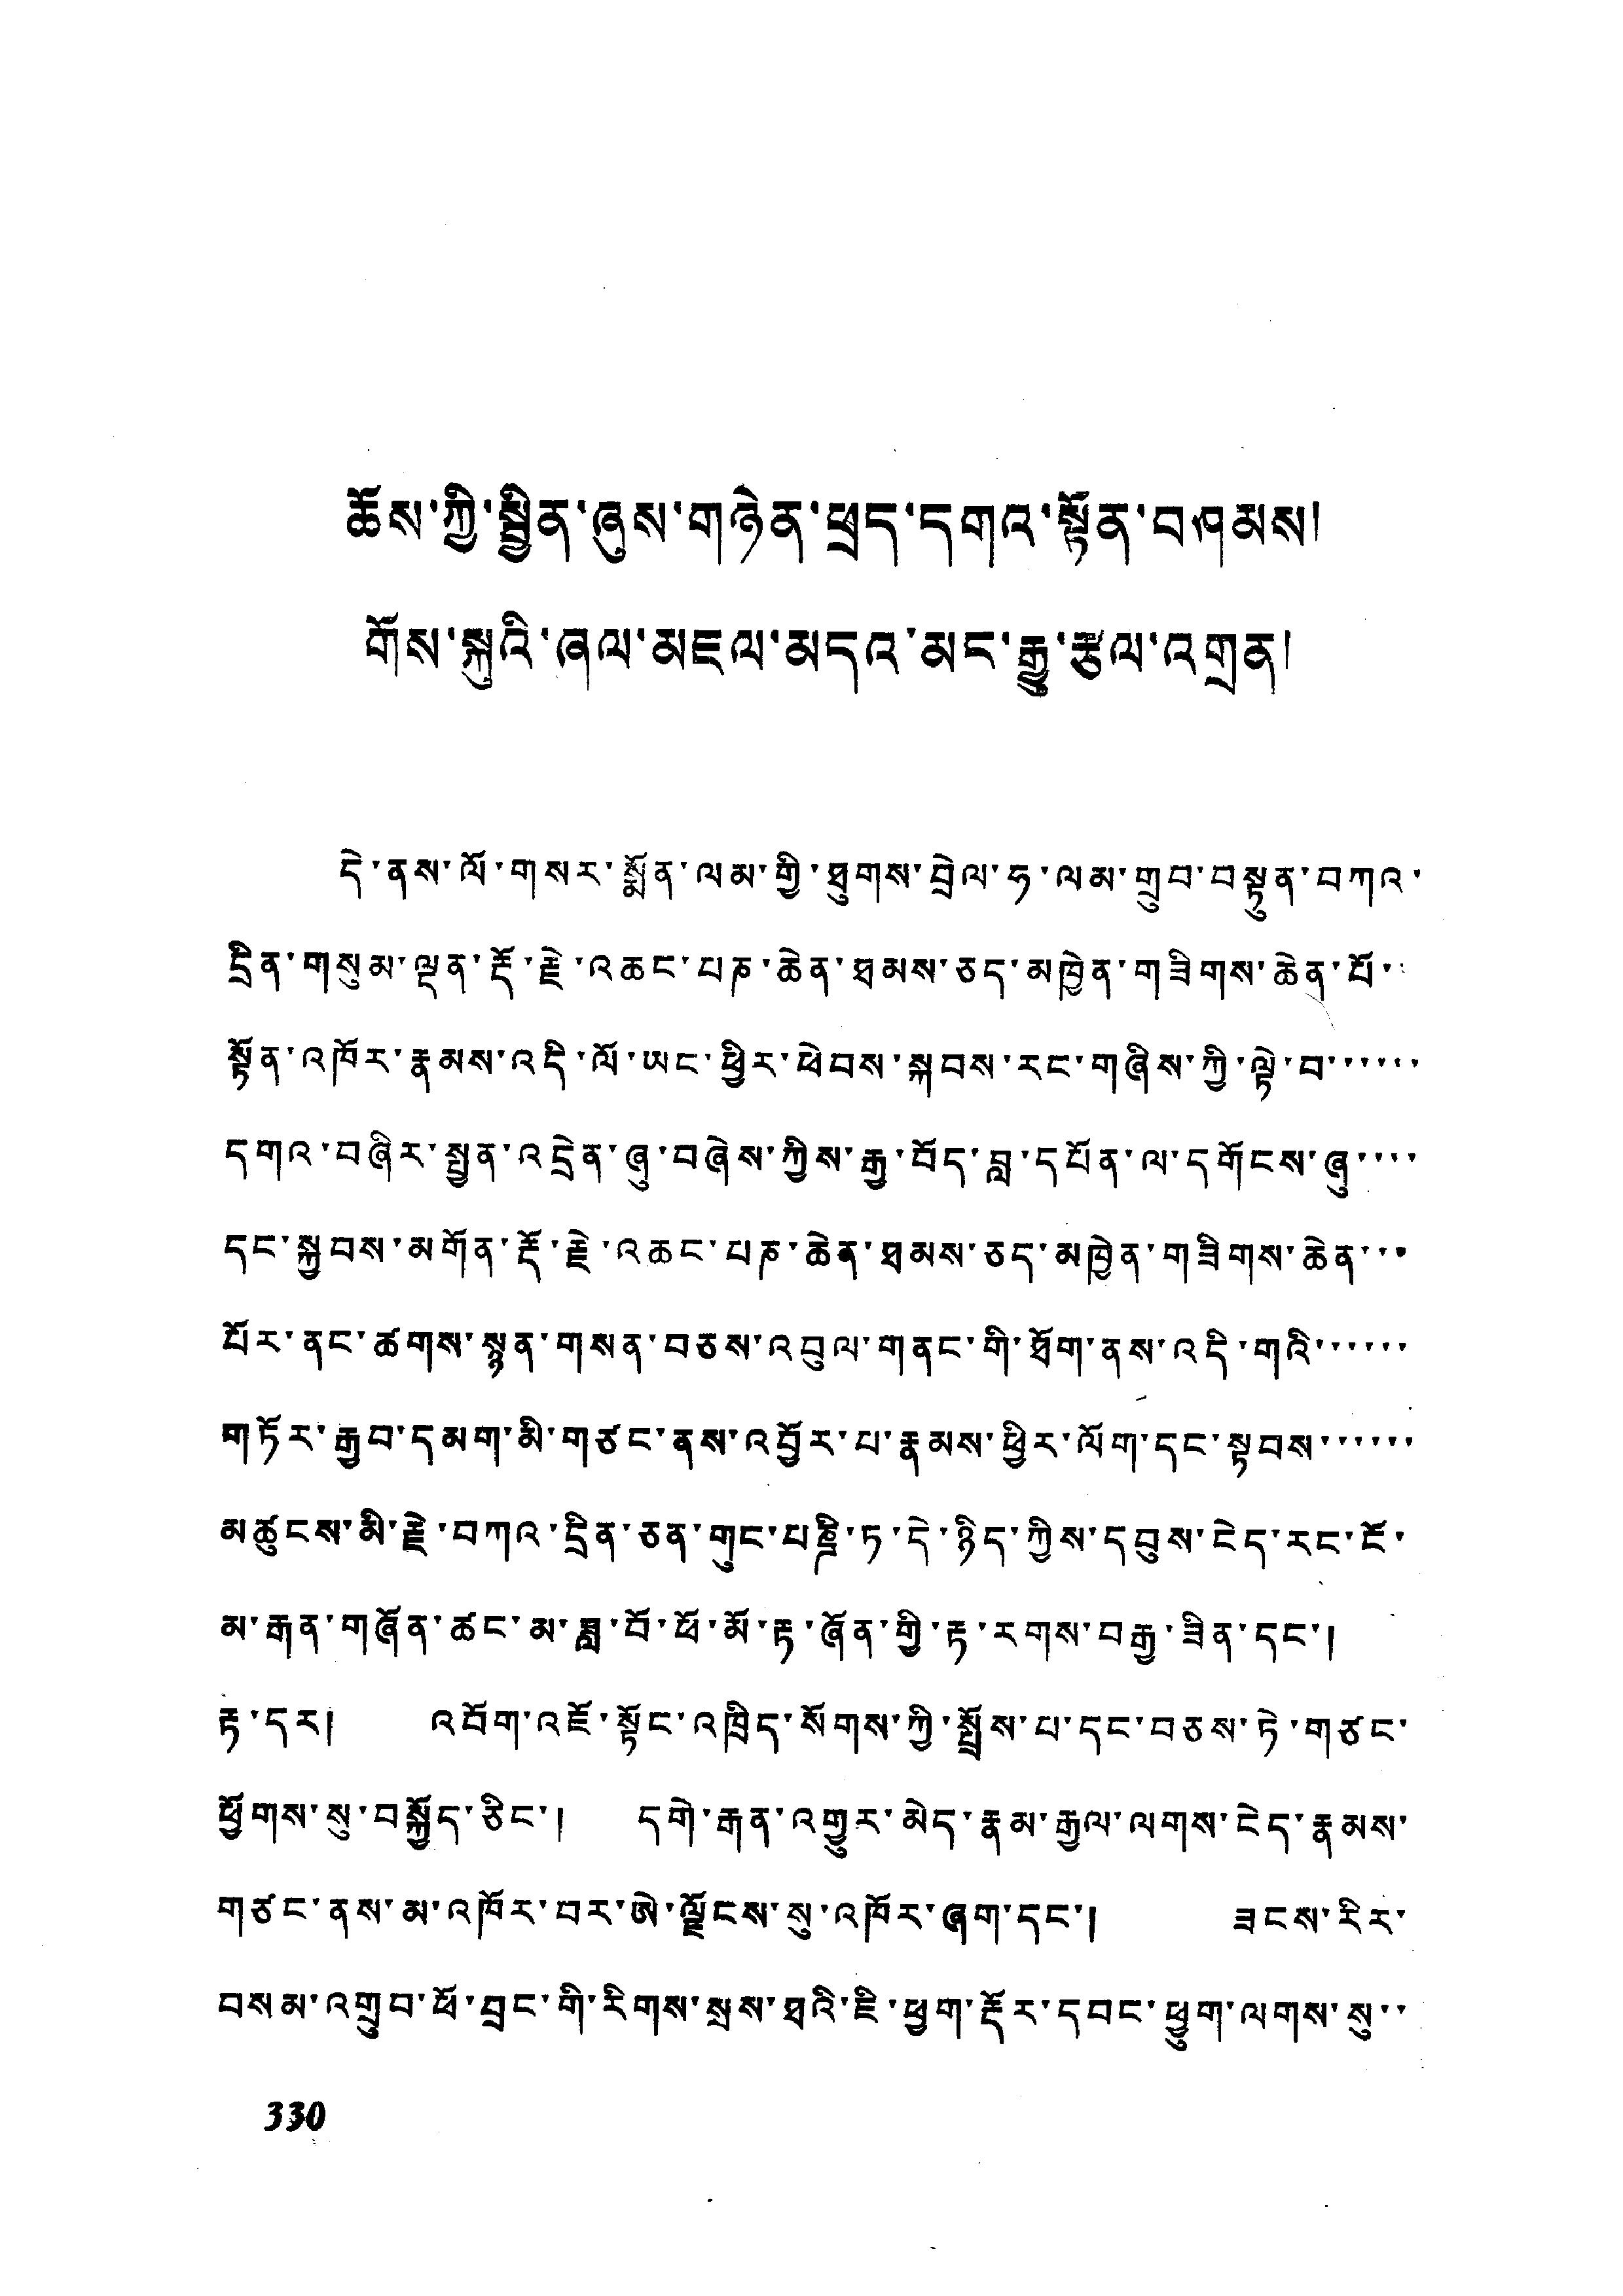ཆོས་ཀྱི་སྦྱིན་ཞུས་གཉེན་ཕྲད་དགའ་སྟོན་བཤམས།
གོས་སྐུའི་ཞལ་མཇལ་མདའ་མང་རྒྱུ་རྩལ་འགྲན།
དེ་ནས་ལོ་གསར་སྨོན་ལམ་གྱི་ཐུགས་བྲེལ་ཧ་ལམ་གྲུབ་བསྟུན་བཀའ་
དྲིན་གསུམ་ལྡན་རྡོ་རྗེ་འཆང་པཎ་ཆེན་ཐམས་ཅད་མཁྱེན་གཟིགས་ཆེན་པོ་
སྟོན་འཁོར་རྣམས་འདི་ལོ་ཡང་ཕྱིར་ཕེབས་སྐབས་རང་གཞིས་ཀྱི་ལྟེ་བ་་་་་་
དགའ་བཞིར་སྤྱན་འདྲེན་ཞུ་བཞེས་ཀྱིས་རྒྱ་བོད་བླ་དཔོན་ལ་དགོངས་ཞུ་་་་
དང་སྐྱབས་མགོན་རྡོ་རྗེ་འཆང་པཎ་ཆེན་ཐམས་ཅད་མཁྱེན་གཟིགས་ཆེན་་་
པོར་ནང་ཚགས་སྙན་གསན་བཅས་འབུལ་གནང་གི་ཐོག་ནས་འདི་གའི་་་་་་
གཏོར་རྒྱབ་དམག་མི་གཙང་ནས་འབྱོར་པ་རྣམས་ཕྱིར་ལོག་དང་སྟབས་་་་་་
མཚུངས་མི་རྗེ་བཀའ་དྲིན་ཅན་གུང་པཎྜི་ཏ་དེ་ཉིད་ཀྱིས་དབུས་ངེད་རང་ངོ་
མ་རྒན་གཞོན་ཚང་མ་ཟླ་བོ་ཕོ་མོ་རྟ་ཞོན་གྱི་རྟ་རགས་བརྒྱ་ཟིན་དང་།
རྟ་དར། འབོག་འཇོ་སྟོང་འཁྲིད་སོགས་ཀྱི་སྤྲོས་པ་དང་བཅས་ཏེ་གཙང་
ཕྱོགས་སུ་བསྐྱོད་ཅིང་། དགེ་རྒན་འགྱུར་མེད་རྣམ་རྒྱལ་ལགས་ངེད་རྣམས་
གཙང་ནས་མ་འཁོར་བར་ཨེ་ལྗོངས་སུ་འཁོར་ཞག་དང་། ཟངས་རིར་
བསམ་འགྲུབ་ཕོ་བྲང་གི་རིགས་སྲས་ཐའི་ཇི་ཕྱག་རྡོར་དབང་ཕྱུག་ལགས་སུ་་
330
